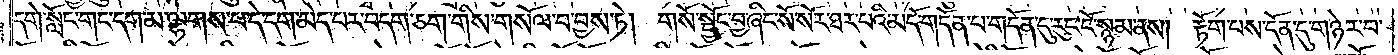དགེ་སློང་གང་དག་མ་ལྷགས་པ་དེ་དག་མེད་པར་བདག་ཅག་གིས་གསོལ་བ་བྱས་ཏེ། གསོ་སྦྱོང་བྱ་ཞིང་སོ་སོར་ཐར་པའི་མདོ་གདོན་པ་གདོན་དུ་རུང་ངོ་སྙམ་ནས། རྟོག་པས་དོན་དུ་གཉེར་བ་
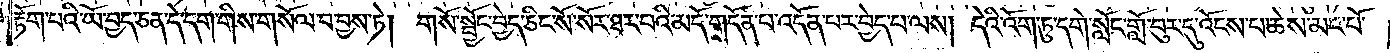རྟོག་པའི་ཡོ་བྱད་ཅན་དེ་དག་གིས་གསོལ་བ་བྱས་ཏེ། གསོ་སྦྱོང་བྱེད་ཅིང་སོ་སོར་ཐར་པའི་མདོ་གདོན་པ་འདོན་པར་བྱེད་པ་ལས། དེའི་འོག་ཏུ་དགེ་སློང་གློ་བུར་དུ་འོངས་པ་ཆེས་མང་པོ་
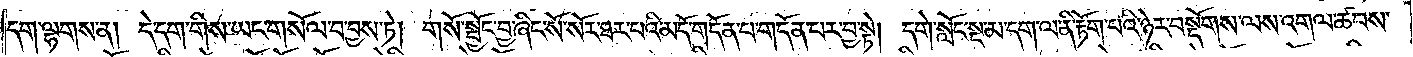དག་ལྷགས་ན། དེ་དག་གིས་ཡང་གསོལ་བ་བྱས་ཏེ། གསོ་སྦྱོང་བྱ་ཞིང་སོ་སོར་ཐར་པའི་མདོ་གདོན་པ་གདོན་པར་བྱ་སྟེ། དགེ་སློང་སྔ་མ་དག་ལ་ནི་རྟོག་པའི་ཉེར་བསྡོགས་ལས་འགལ་ཚབས་
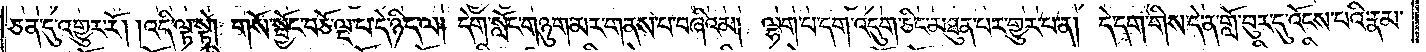ཅན་དུ་འགྱུར་རོ། །འདི་ལྟ་སྟེ། གསོ་སྦྱོང་བཅོ་ལྔ་པ་དེ་ཉིད་ལ། དགེ་སློང་གཉུག་མར་གནས་པ་བཞིའམ། ལྷག་པ་དག་འདུག་ཅིང་མཐུན་པར་གྱུར་པ་ན། དེ་དག་གིས་དེ་ན་གློ་བུར་དུ་འོངས་པའི་རྣམ་
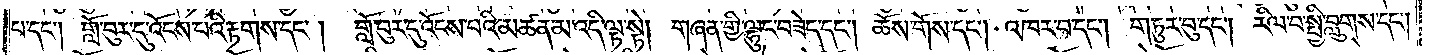པ་དང༌། གློ་བུར་དུ་འོངས་པའི་རྟགས་དང༌། གློ་བུར་དུ་འོངས་པའི་མཚན་མ་འདི་ལྟ་སྟེ། གཞན་གྱི་ལྷུང་བཟེད་དང༌། ཆོས་གོས་དང༌། འཁར་བ་དང༌། གཏུར་བུ་དང༌། རིལ་བ་སྤྱི་བླུགས་དང་།
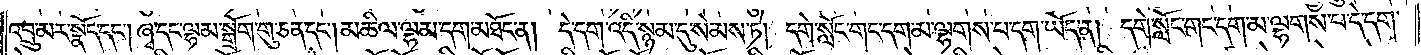འབྲུ་མར་སྣོད་དང༌། ཞྭ་དང་ལྷམ་སྒྲོག་གུ་ཅན་དང༌། མཆིལ་ལྷམ་དག་མཐོང་ན། དེ་དག་འདི་སྙམ་དུ་སེམས་ཏེ། དགེ་སློང་གང་དག་མ་ལྷགས་པ་དག་ཡོད་ན། དགེ་སློང་གང་དག་མ་ལྷགས་པ་དེ་དག་
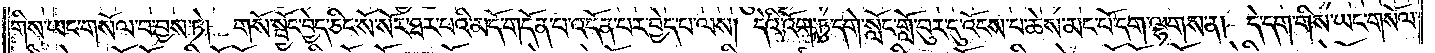གིས་ཡང་གསོལ་བ་བྱས་ཏེ། གསོ་སྦྱོང་བྱེད་ཅིང་སོ་སོར་ཐར་པའི་མདོ་གདོན་པ་འདོན་པར་བྱེད་པ་ལས། དེའི་འོག་ཏུ་དགེ་སློང་གློ་བུར་དུ་འོངས་པ་ཆེས་མང་པོ་དག་ལྷགས་ན། དེ་དག་གིས་ཡང་གསོལ་
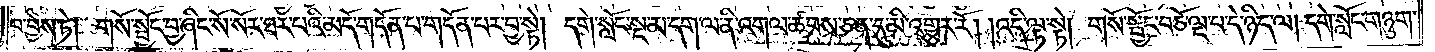བ་བྱས་ཏེ། གསོ་སྦྱོང་བྱ་ཞིང་སོ་སོར་ཐར་པའི་མདོ་གདོན་པ་གདོན་པར་བྱ་སྟེ། དགེ་སློང་སྔ་མ་དག་ལ་ནི་འགལ་ཚབས་ཅན་དུ་མི་འགྱུར་རོ། །འདི་ལྟ་སྟེ། གསོ་སྦྱོང་བཅོ་ལྔ་པ་དེ་ཉིད་ལ། དགེ་སློང་གཉུག་
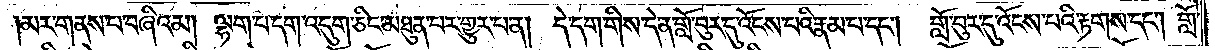མར་གནས་པ་བཞིའམ། ལྷག་པ་དག་འདུག་ཅིང་མཐུན་པར་གྱུར་པ་ན། དེ་དག་གིས་དེ་ན་གློ་བུར་དུ་འོངས་པའི་རྣམ་པ་དང༌།    གློ་བུར་དུ་འོངས་པའི་རྟགས་དང༌། གློ་
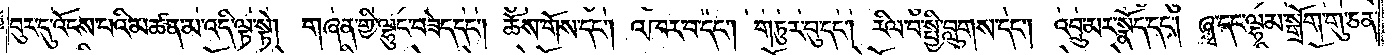བུར་དུ་འོངས་པའི་མཚན་མ་འདི་ལྟ་སྟེ། གཞན་གྱི་ལྷུང་བཟེད་དང༌། ཆོས་གོས་དང༌། འཁར་བ་དང༌། གཏུར་བུ་དང༌། རིལ་བ་སྤྱི་བླུགས་དང༌། འབྲུ་མར་སྣོད་དང༌། ཞྭ་དང་ལྷམ་སྒྲོག་གུ་ཅན་
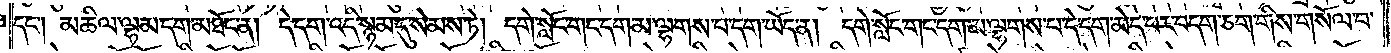དང༌། མཆིལ་ལྷམ་དག་མཐོང་ན། དེ་དག་འདི་སྙམ་དུ་སེམས་ཏེ། དགེ་སློང་གང་དག་མ་ལྷགས་པ་དག་ཡོད་ན། དགེ་སློང་གང་དག་མ་ལྷགས་པ་དེ་དག་མེད་པར་བདག་ཅག་གིས་གསོལ་བ་
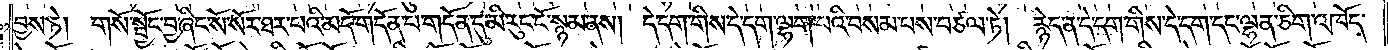བྱས་ཏེ། གསོ་སྦྱོང་བྱ་ཞིང་སོ་སོར་ཐར་པའི་མདོ་གདོན་པ་གདོན་དུ་མི་རུང་ངོ་སྙམ་ནས། དེ་དག་གིས་དེ་དག་ལྷག་པའི་བསམ་པས་བཙལ་ཏེ། རྙེད་ན་དེ་དག་གིས་དེ་དག་དང་ལྷན་ཅིག་འཁོད་
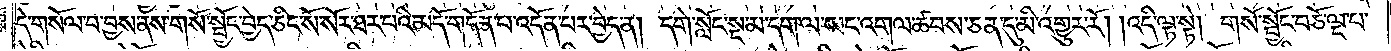དེ་གསོལ་བ་བྱས་ནས་གསོ་སྦྱོང་བྱེད་ཅིང་སོ་སོར་ཐར་པའི་མདོ་གདོན་པ་འདོན་པར་བྱེད་ན། དགེ་སློང་སྔ་མ་དག་ལ་ཡང་འགལ་ཚབས་ཅན་དུ་མི་འགྱུར་རོ། །འདི་ལྟ་སྟེ། གསོ་སྦྱོང་བཅོ་ལྔ་པ་
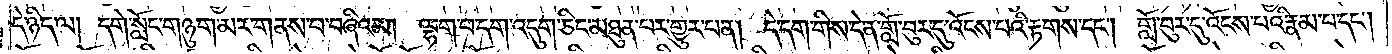དེ་ཉིད་ལ། དགེ་སློང་གཉུག་མར་གནས་པ་བཞིའམ། ལྷག་པ་དག་འདུག་ཅིང་མཐུན་པར་གྱུར་པ་ན། དེ་དག་གིས་དེ་ན་གློ་བུར་དུ་འོངས་པའི་རྟགས་དང༌། གློ་བུར་དུ་འོངས་པའི་རྣམ་པ་དང༌།
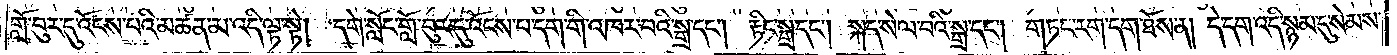གློ་བུར་དུ་འོངས་པའི་མཚན་མ་འདི་ལྟ་སྟེ། དགེ་སློང་གློ་བུར་དུ་འོངས་པ་དག་གི་འཁར་བའི་སྒྲ་དང༌། རྟིང་སྒྲ་དང༌། སྐད་སེལ་བའི་སྒྲ་དང༌། གཏང་རག་དག་ཐོས་ན། དེ་དག་འདི་སྙམ་དུ་སེམས་
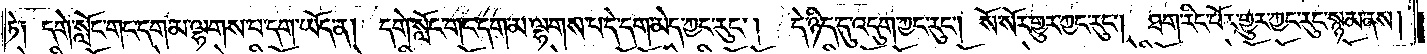ཏེ༑ དགེ་སློང་གང་དག་མ་ལྷགས་པ་དག་ཡོད་ན། དགེ་སློང་གང་དག་མ་ལྷགས་པ་དེ་དག་མེད་ཀྱང་རུང༌། དེ་ཉིད་དུ་འདུག་ཀྱང་རུང༌། སོ་སོར་གྱུར་ཀྱང་རུང༌། ཐག་རིང་པོར་གྱུར་ཀྱང་རུང་སྙམ་ནས།
